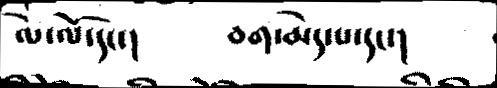ལེ་ལོ་དང་།      བག་མེད་པ་དང་།
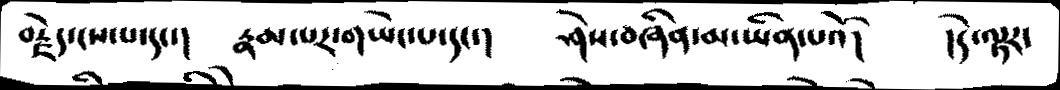བརྫེད་ངས་པ་དང་།   རྣམ་པར་གཡེང་པ་དང་།    ཤེས་བཞིན་མ་ཡིན་པའོ།     །དེ་ལྟར་
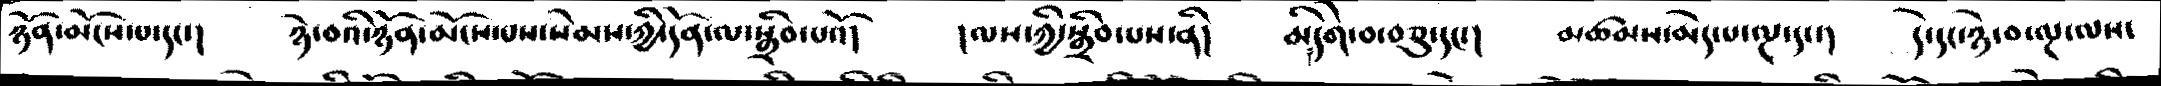ཉོན་མོངས་པ་དང་།     ཉེ་བའི་ཉོན་མོངས་པས་སེམས་ཀྱི་དོན་ལ་སྒྲིབ་པའོ།    །ལས་ཀྱི་སྒྲིབ་པས་ནི།   མི་དགེ་བ་བཅུ་དང་།    མཚམས་མེད་པ་ལྔ་དང་།    དེ་དང་ཉེ་བ་ལྔ་ལས་
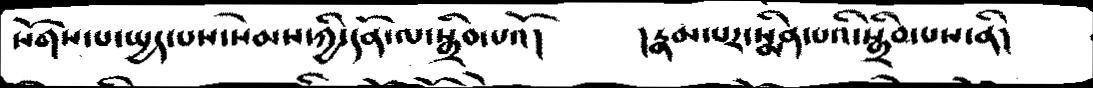སོགས་པ་སྤྱད་པས་སེམས་ཀྱི་དོན་ལ་སྒྲིབ་པའོ།     །རྣམ་པར་སྨིན་པའི་སྒྲིབ་པས་ནི།
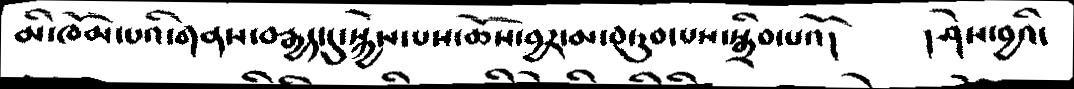མི་ཁོམས་པའི་གནས་བརྒྱད་དུ་སྐྱེས་པས་ཆོས་བྱར་མ་བཏུབ་པས་སྒྲིབ་པའོ།     །ཤེས་བྱའི་
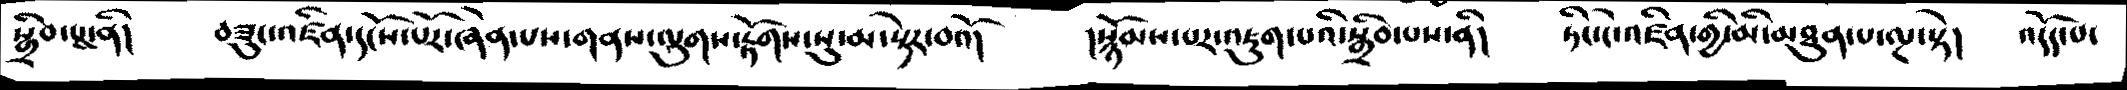སྒྲིབ་པས་ནི།    བཟུང་འཛིན་དངོས་པོར་ཞེན་པས་གནས་ལུགས་རྟོགས་སུ་མ་སྟེར་བའོ།     །སྙོམས་པར་འཇུག་པའི་སྒྲིབ་པས་ནི།    ཏིང་ངེ་འཛིན་གྱི་མི་མཐུན་པ་ལྔ་སྟེ།    འདོད་པ་
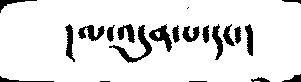།ལ་འདུན་པ་དང་།
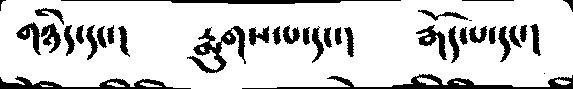གཉིད་དང་།    རྨུགས་པ་དང་།     རྒོད་པ་དང་།
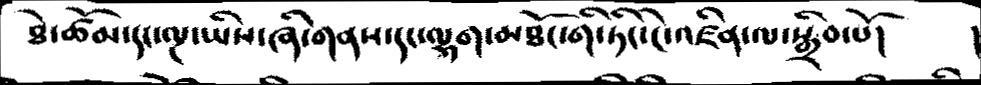ཐེ་ཚོམ་དང་ལྔ་ཡིས་ཞི་གནས་དང་ལྷག་མཐོང་གི་ཏིང་ངེ་འཛིན་ལ་སྒྲིབ་པོ།   །
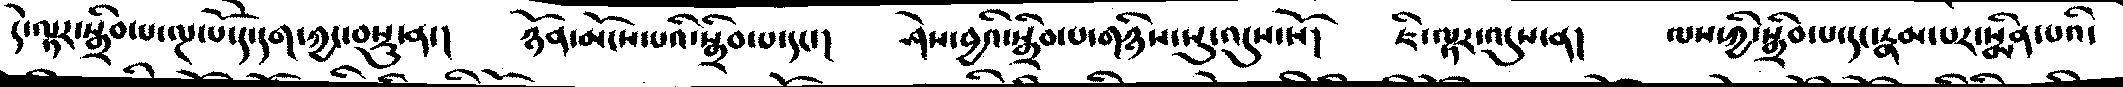དེ་ལྟར་སྒྲིབ་པ་ལྔ་པོ་དེ་དག་ཀྱང་བསྡུ་ན་།    ཉོན་མོངས་པའི་སྒྲིབ་པ་དང་།    ཤེས་བྱའི་སྒྲིབ་པ་གཉིས་སུ་འདུས་སོ།   ཇི་ལྟར་འདུས་ན།    ལས་ཀྱི་སྒྲིབ་པ་དང་རྣམ་པར་སྨིན་པའི་
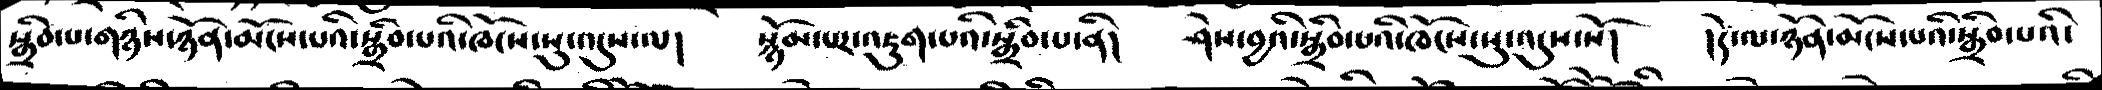སྒྲིབ་པ་གཉིས་ཉོན་མོངས་པའི་སྒྲིབ་པའི་ཁོངས་སུ་འདུས་ལ།   སྙོམ་པར་འཇུག་པའི་སྒྲིབ་པ་ནི།   ཤེས་བྱའི་སྒྲིབ་པའི་ཁོངས་སུ་འདུས་སོ།   །དེ་ལ་ཉོན་མོངས་པའི་སྒྲིབ་པའི་
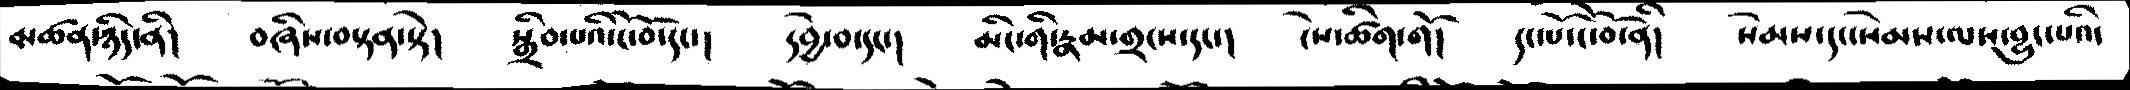མཚན་ཉིད་ནི།   བཞིས་བསྟན་སྟེ།    སྒྲིབ་པའི་ངོ་བོ་དང་།    དབྱེ་བ་དང་།    མིང་གི་རྣམ་གྲངས་དང་།   ངེས་ཚིག་གོ།   དང་པོ་ངོ་བོ་ནི།  སེམས་དང་སེམས་ལས་བྱུང་པའི་
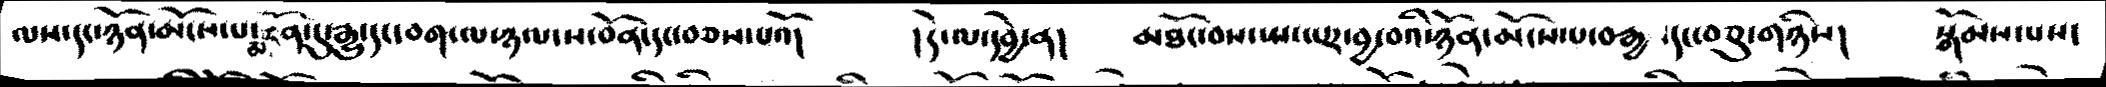ལས་དང་ཉོན་མོངས་པ་མངོན་དུ་རྒྱུ་དང་བག་ལ་ཉལ་ས་བོན་དང་བཅས་པའོ།   །དེ་ལ་དབྱེ་ན།   མཐོང་བས་སྤང་པར་བྱ་བའི་ཉོན་མོངས་པ་བརྒྱ་དང་བཅུ་གཉིས།  སྒོམས་པས་
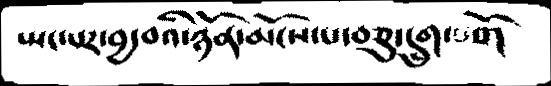སྤང་པར་བྱ་བའི་ཉོན་མོངས་པ་བཅུ་དྲུག་པའོ།
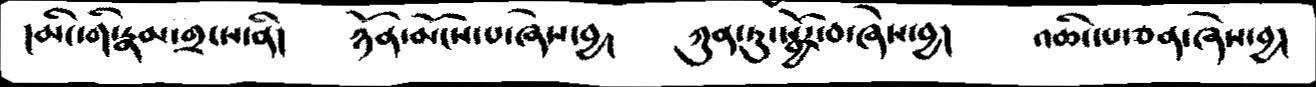།མིང་གི་རྣམ་གྲངས་ནི།    ཉོན་མོངས་པ་ཞེས་བྱ།    ཀུན་ཏུ་སྦྱོར་བ་ཞེས་བྱ།    འཆིང་པ་ཅན་ཞེས་བྱ།
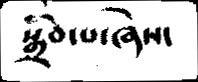སྒྲིབ་པ་ཞེས་
